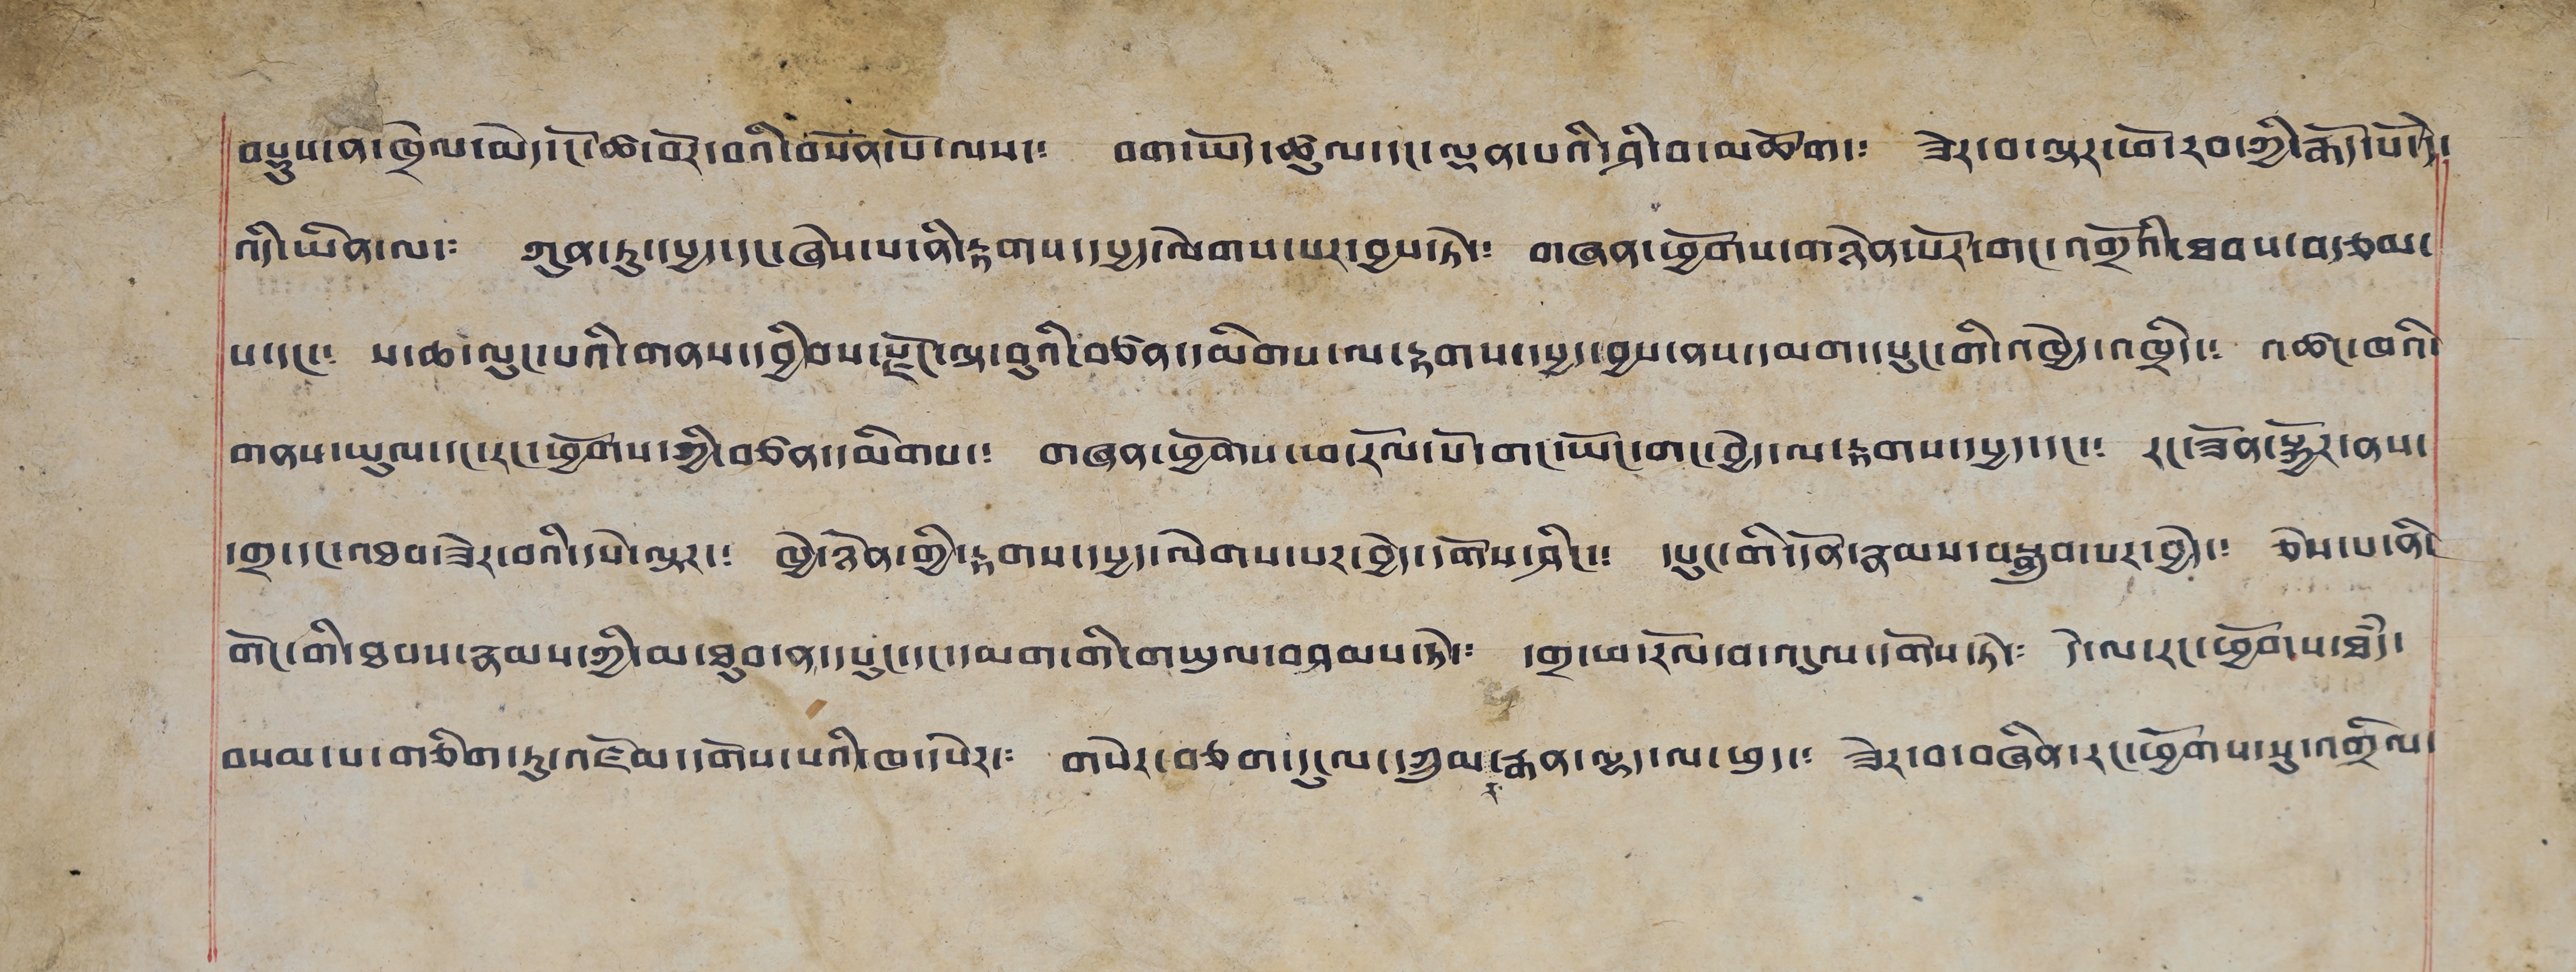བསྡུས་ན་ཁྲེལ་མེད་ངོ་ཚ་བོར་བའི་བསོན་པོ་ལས་༴ བག་ཡོད་ཚུལ་དང་ལྡན་པའི་ཤི་བ་མཆོག་༴ ཟེར་བ་ལྟར་ཕོ་རབ་ཀྱི་རྒོད་པོ་དེ་
འདི་ཡིན་ལ་༴ ཀུན་ཏུ་དཔྱད་དང་ཞེས་པ་ནི་རྟགས་དཔྱད་ལེགས་པར་བྱས་ཏེ་༴ གཞན་ཕྱོགས་གཉེན་ཡོར་གང་འགྲོའི་ཐབས་བཙལ་
པ་དང་༴ ས་ཆ་ལུང་པའི་གནས་དབྱིབས་ལྗོང་ལྟ་བུའི་བཙན་དམིགས་ལ་རྟགས་དཔྱད་བྱས་ནས་དམག་དཔུང་གི་འཁྱེད་འཁྲིད་༴ འཚང་ཁའི་
གནས་ཡུལ་དང་རང་ཕྱོགས་ཀྱི་བཙན་དམིགས་༴ གཞན་ཕྱོགས་ཕ་རོལ་པོ་གང་ཡོང་གང་བྱེད་ལ་རྟགས་དཔྱད་དང་༴ རང་ཟོན་སྐྱོར་ནས་
དགྲ་དང་འཐབ་ཟེར་བའི་དཔེ་ལྟར་༴ ཁྱེ་ཉེན་གྱི་རྟགས་དཔྱད་ལེགས་པར་བྱེད་དགོས་ཤིང་༴ དཔུང་གི་དོན་རྣམས་བསྒྲུབ་པར་བྱེད་༴ ཅེས་པ་ནི་
གོང་གི་ཐབས་རྣམས་ཀྱི་མ་ཐུབ་ན་དཔུང་དང་དམག་གི་གཡུལ་བཤམས་ཏེ་༴ དགྲ་ཕ་རོལ་བ་འདུལ་དགོས་ཏེ་༴ དེ་ལ་རང་ཕྱོགས་ཐཾད་
བསམ་པ་གཅིག་ཏུ་འཛོམ་དགོས་པའི་ཁ་དཔེར་༴ གསེར་བཅག་དངུལ་དཀྲུམ་ར་རྒན་ལྷད་ལ་ཕྲད་༴ ཟེར་བ་བཞིན་རང་ཕྱོགས་སུ་འགྲིལ་
